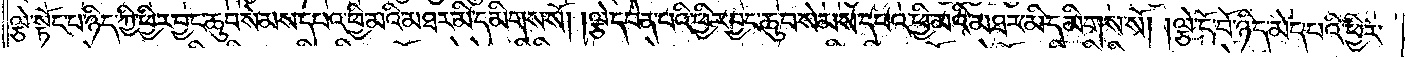ལྕེ་སྟོང་པ་ཉིད་ཀྱི་ཕྱིར་བྱང་ཆུབ་སེམས་དཔའ་ཕྱི་མའི་མཐར་མི་དམིགས་སོ། །ལྕེ་དབེན་པའི་ཕྱིར་བྱང་ཆུབ་སེམས་དཔའ་ཕྱི་མའི་མཐར་མི་དམིགས་སོ། །ལྕེ་ངོ་བོ་ཉིད་མེད་པའི་ཕྱིར་
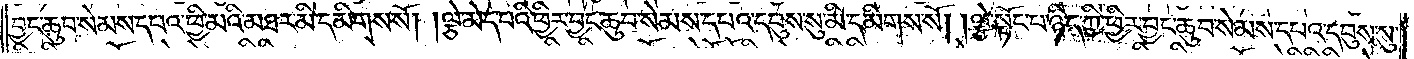བྱང་ཆུབ་སེམས་དཔའ་ཕྱི་མའི་མཐར་མི་དམིགས་སོ། །ལྕེ་མེད་པའི་ཕྱིར་བྱང་ཆུབ་སེམས་དཔའ་དབུས་སུ་མི་དམིགས་སོ། །ལྕེ་སྟོང་པ་ཉིད་ཀྱི་ཕྱིར་བྱང་ཆུབ་སེམས་དཔའ་དབུས་སུ་
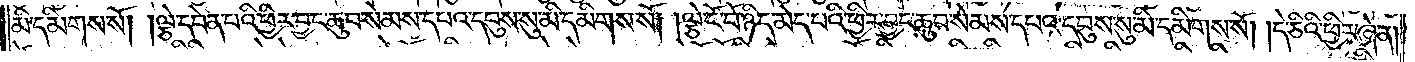མི་དམིགས་སོ། །ལྕེ་དབེན་པའི་ཕྱིར་བྱང་ཆུབ་སེམས་དཔའ་དབུས་སུ་མི་དམིགས་སོ། །ལྕེ་ངོ་བོ་ཉིད་མེད་པའི་ཕྱིར་བྱང་ཆུབ་སེམས་དཔའ་དབུས་སུ་མི་དམིགས་སོ། །དེ་ཅིའི་ཕྱིར་ཞེ་ན།
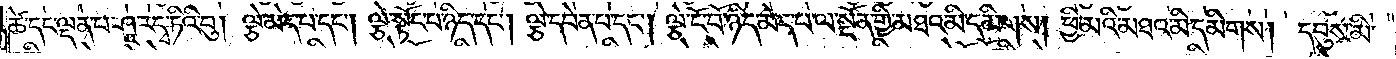ཚེ་དང་ལྡན་པ་ཤཱ་རདྭ་ཏིའི་བུ། ལྕེ་མེད་པ་དང༌། ལྕེ་སྟོང་པ་ཉིད་དང༌། ལྕེ་དབེན་པ་དང༌། ལྕེ་ངོ་བོ་ཉིད་མེད་པ་ལ་སྔོན་གྱི་མཐའ་མི་དམིགས། ཕྱི་མའི་མཐའ་མི་དམིགས། དབུས་མི་
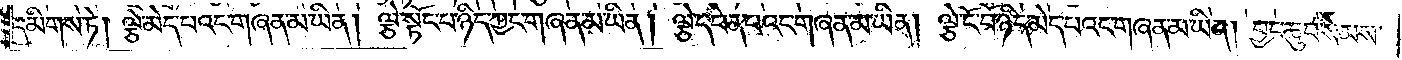དམིགས་ཏེ། ལྕེ་མེད་པའང་གཞན་མ་ཡིན། ལྕེ་སྟོང་པ་ཉིད་ཀྱང་གཞན་མ་ཡིན། ལྕེ་དབེན་པའང་གཞན་མ་ཡིན། ལྕེ་ངོ་བོ་ཉིད་མེད་པའང་གཞན་མ་ཡིན། བྱང་ཆུབ་སེམས་
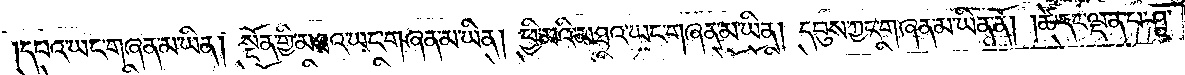དཔའ་ཡང་གཞན་མ་ཡིན། སྔོན་གྱི་མཐའ་ཡང་གཞན་མ་ཡིན། ཕྱི་མའི་མཐའ་ཡང་གཞན་མ་ཡིན། དབུས་ཀྱང་གཞན་མ་ཡིན་ནོ། །ཚེ་དང་ལྡན་པ་ཤཱ་
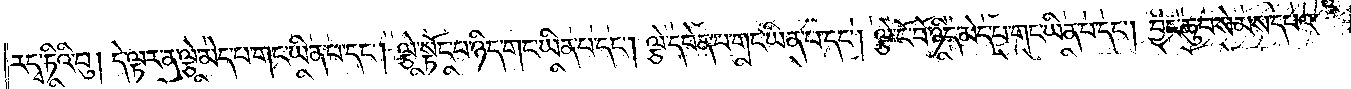རདྭ་ཏིའི་བུ། དེ་ལྟར་ན་ལྕེ་མེད་པ་གང་ཡིན་པ་དང༌། ལྕེ་སྟོང་པ་ཉིད་གང་ཡིན་པ་དང༌། ལྕེ་དབེན་པ་གང་ཡིན་པ་དང༌། ལྕེ་ངོ་བོ་ཉིད་མེད་པ་གང་ཡིན་པ་དང༌། བྱང་ཆུབ་སེམས་དཔའ་
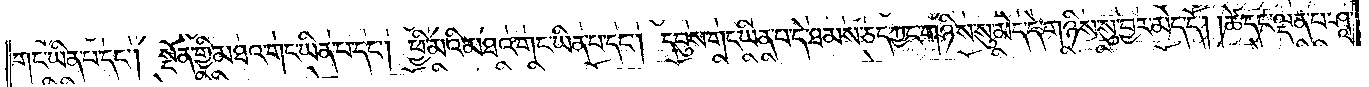གང་ཡིན་པ་དང༌། སྔོན་གྱི་མཐའ་གང་ཡིན་པ་དང༌། ཕྱི་མའི་མཐའ་གང་ཡིན་པ་དང༌། དབུས་གང་ཡིན་པ་དེ་ཐམས་ཅད་ཀྱང་གཉིས་སུ་མེད་དེ་གཉིས་སུ་བྱར་མེད་དོ། ཚེ་དང་ལྡན་པ་ཤཱ་
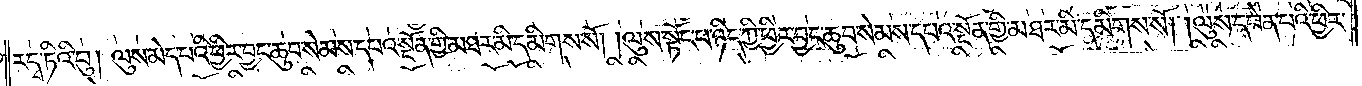རདྭ་ཏིའི་བུ། ལུས་མེད་པའི་ཕྱིར་བྱང་ཆུབ་སེམས་དཔའ་སྔོན་གྱི་མཐར་མི་དམིགས་སོ། །ལུས་སྟོང་པ་ཉིད་ཀྱི་ཕྱིར་བྱང་ཆུབ་སེམས་དཔའ་སྔོན་གྱི་མཐར་མི་དམིགས་སོ། །ལུས་དབེན་པའི་ཕྱིར་
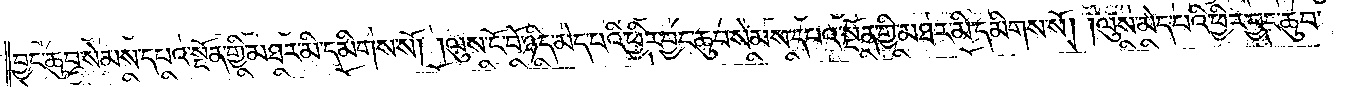བྱང་ཆུབ་སེམས་དཔའ་སྔོན་གྱི་མཐར་མི་དམིགས་སོ། །ལུས་ངོ་བོ་ཉིད་མེད་པའི་ཕྱིར་བྱང་ཆུབ་སེམས་དཔའ་སྔོན་གྱི་མཐར་མི་དམིགས་སོ། །ལུས་མེད་པའི་ཕྱིར་བྱང་ཆུབ་
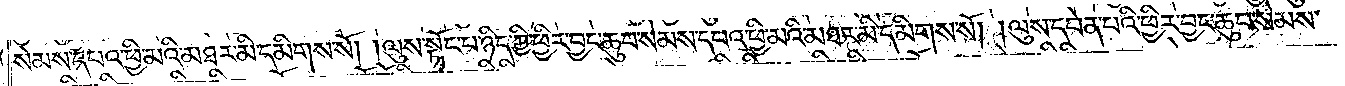སེམས་དཔའ་ཕྱི་མའི་མཐར་མི་དམིགས་སོ། །ལུས་སྟོང་པ་ཉིད་ཀྱི་ཕྱིར་བྱང་ཆུབ་སེམས་དཔའ་ཕྱི་མའི་མཐར་མི་དམིགས་སོ། །ལུས་དབེན་པའི་ཕྱིར་བྱང་ཆུབ་སེམས་
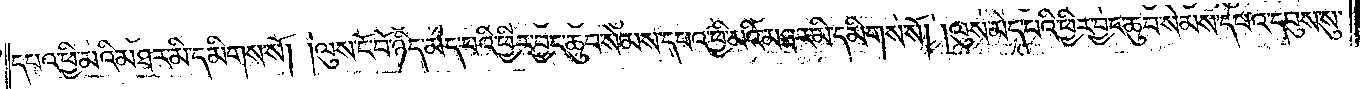དཔའ་ཕྱི་མའི་མཐར་མི་དམིགས་སོ། །ལུས་ངོ་བོ་ཉིད་མེད་པའི་ཕྱིར་བྱང་ཆུབ་སེམས་དཔའ་ཕྱི་མའི་མཐར་མི་དམིགས་སོ། །ལུས་མེད་པའི་ཕྱིར་བྱང་ཆུབ་སེམས་དཔའ་དབུས་སུ་
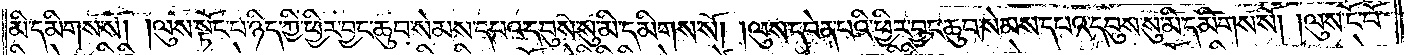མི་དམིགས་སོ། །ལུས་སྟོང་པ་ཉིད་ཀྱི་ཕྱིར་བྱང་ཆུབ་སེམས་དཔའ་དབུས་སུ་མི་དམིགས་སོ། །ལུས་དབེན་པའི་ཕྱིར་བྱང་ཆུབ་སེམས་དཔའ་དབུས་སུ་མི་དམིགས་སོ། །ལུས་ངོ་བོ་
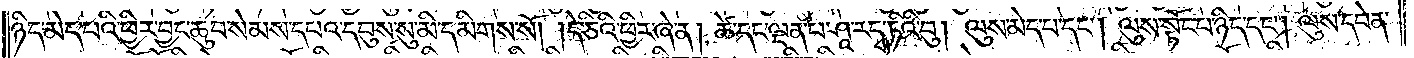ཉིད་མེད་པའི་ཕྱིར་བྱང་ཆུབ་སེམས་དཔའ་དབུས་སུ་མི་དམིགས་སོ། །དེ་ཅིའི་ཕྱིར་ཞེ་ན། ཚེ་དང་ལྡན་པ་ཤཱ་རདྭ་ཏིའི་བུ། ལུས་མེད་པ་དང༌། ལུས་སྟོང་པ་ཉིད་དང༌། ལུས་དབེན་
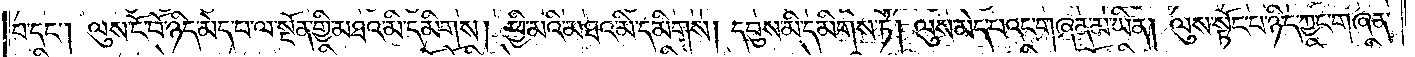པ་དང༌། ལུས་ངོ་བོ་ཉིད་མེད་པ་ལ་སྔོན་གྱི་མཐའ་མི་དམིགས། ཕྱི་མའི་མཐའ་མི་དམིགས། དབུས་མི་དམིགས་ཏེ། ལུས་མེད་པའང་གཞན་མ་ཡིན། ལུས་སྟོང་པ་ཉིད་ཀྱང་གཞན་
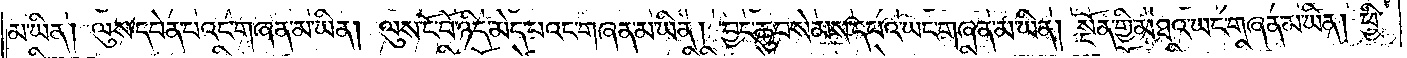མ་ཡིན། ལུས་དབེན་པའང་གཞན་མ་ཡིན། ལུས་ངོ་བོ་ཉིད་མེད་པའང་གཞན་མ་ཡིན། བྱང་ཆུབ་སེམས་དཔའ་ཡང་གཞན་མ་ཡིན། སྔོན་གྱི་མཐའ་ཡང་གཞན་མ་ཡིན། ཕྱི་
